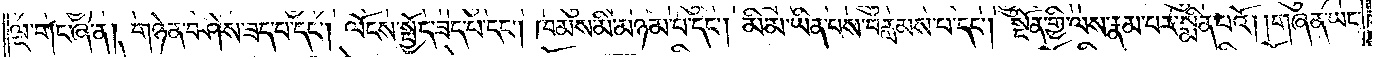ལྔ་གང་ཞེ་ན། གཉེན་བཤེས་ཟད་པ་དང༌། ལོངས་སྤྱོད་ཟད་པ་དང༌། ཁམས་མི་མཉམ་པ་དང༌། མི་མ་ཡིན་པས་བརླམས་པ་དང༌། སྔོན་གྱི་ལས་རྣམ་པར་སྨིན་པའོ། །གཞན་ཡང་
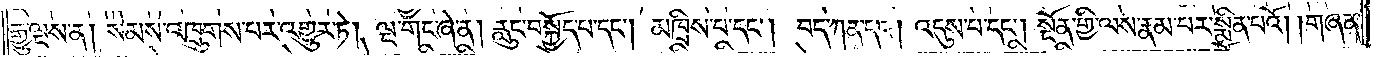རྒྱུ་ལྔས་ན། སེམས་འཁྲུགས་པར་འགྱུར་ཏེ། ལྔ་གང་ཞེ་ན། རླུང་བསྐྱོད་པ་དང༌། མཁྲིས་པ་དང༌། བད་ཀན་དང༌། འདུས་པ་དང༌། སྔོན་གྱི་ལས་རྣམ་པར་སྨིན་པའོ། །གཞན་
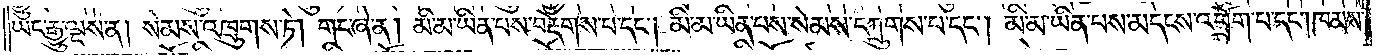ཡང་རྒྱུ་ལྔས་ན། སེམས་འཁྲུགས་ཏེ། གང་ཞེ་ན། མི་མ་ཡིན་པས་བརྡེགས་པ་དང༌། མི་མ་ཡིན་པས་སེམས་དཀྲུགས་པ་དང༌། མི་མ་ཡིན་པས་མདངས་འཕྲོག་པ་དང༌། ཁམས་
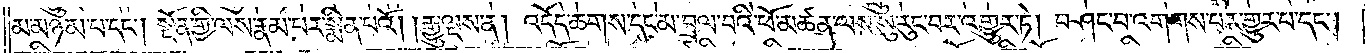མ་མཉམ་པ་དང༌། སྔོན་གྱི་ལས་རྣམ་པར་སྨིན་པའོ། །རྒྱུ་ལྔས་ན། འདོད་ཆགས་དང་མ་བྲལ་བའི་ཕོ་མཚན་ལས་སུ་རུང་བར་འགྱུར་ཏེ། བཤང་བ་འགགས་པར་གྱུར་པ་དང༌།
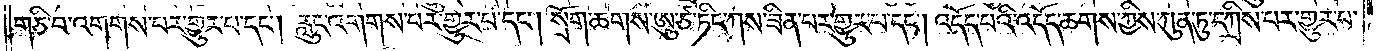གཅི་བ་འགགས་པར་གྱུར་པ་དང༌། རླུང་འགགས་པར་གྱུར་པ་དང༌། སྲོག་ཆགས་ཨུ་ཙ་ཏིང་ཀས་ཟིན་པར་གྱུར་པ་དང༌། འདོད་པའི་འདོད་ཆགས་ཀྱིས་ཀུན་ཏུ་དཀྲིས་པར་གྱུར་པ་
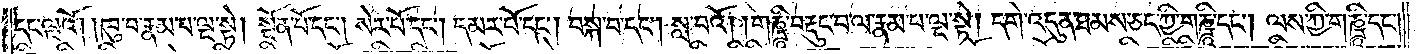དང་ལྔའོ། །ཁུ་བ་རྣམ་པ་ལྔ་སྟེ། སྔོན་པོ་དང༌། སེར་པོ་དང༌། དམར་པོ་དང༌། བསྐ་བ་དང༌། སླ་བའོ། །གཎྜཱི་བརྡུང་བ་ལ་རྣམ་པ་ལྔ་སྟེ། དགེ་འདུན་ཐམས་ཅད་ཀྱི་གཎྜཱི་དང༌། ལས་ཀྱི་གཎྜཱི་དང་
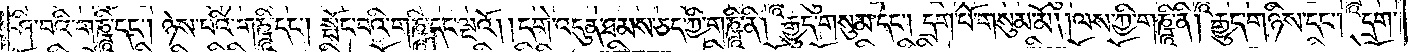ཤི་བའི་གཎྜཱི་དང༌། ཉེས་པའི་གཎྜཱི་དང༌། སྤོང་བའི་གཎྜཱི་དང་ལྔའོ། །དགེ་འདུན་ཐམས་ཅད་ཀྱི་གཎྜཱི་ནི། རྒུད་གསུམ་དང༌། དྲག་པོ་གསུམ་མོ། །ལས་ཀྱི་གཎྜཱི་ནི། རྒྱུད་གཉིས་དང༌། དྲག་
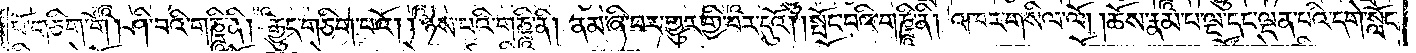པོ་གཅིག་གོ །ཤི་བའི་གཎྜཱི་ནི། རྒྱུད་གཅིག་པའོ། །ཉེས་པའི་གཎྜཱི་ནི། ནམ་ཞི་བར་གྱུར་གྱི་བར་དུའོ། །སྤོང་བའི་གཎྜཱི་ནི། འཁར་གསིལ་ལོ། །ཆོས་རྣམ་པ་ལྔ་དང་ལྡན་པའི་དགེ་སློང་
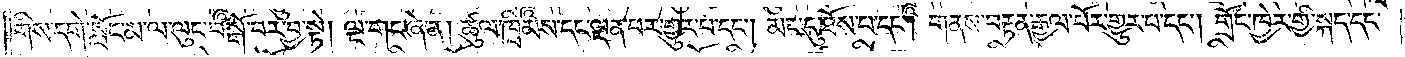གིས་དགེ་སློང་མ་ལ་ལུང་བསྒོ་བར་བྱ་སྟེ། ལྔ་གང་ཞེ་ན། ཚུལ་ཁྲིམས་དང་ལྡན་པར་གྱུར་པ་དང༌། མང་དུ་ཐོས་པ་དང༌། གནས་བརྟན་རྒྱལ་པོར་གྱུར་པ་དང༌། གྲོང་ཁྱེར་གྱི་སྐད་དང་
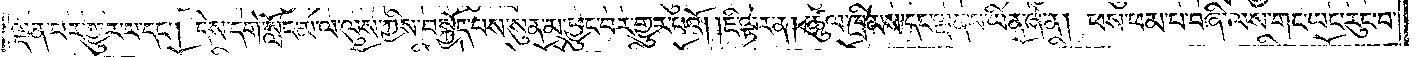ལྡན་པར་གྱུར་པ་དང༌། དེས་དགེ་སློང་མ་ལ་ལུས་ཀྱིས་བསྐྱོད་པས་སུན་མ་ཕྱུང་བར་གྱུར་པའོ། །ཇི་ལྟར་ན། ཚུལ་ཁྲིམས་དང་ལྡན་པ་ཡིན་ཞེ་ན། ཕས་ཕམ་པ་བཞི་ལས་གང་ཡང་རུང་བ་
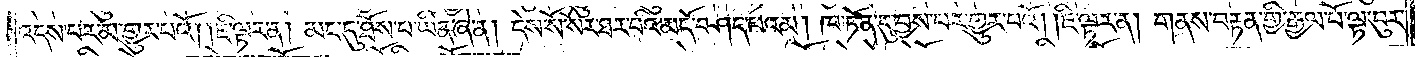འདས་པར་མ་གྱུར་པའོ། །ཇི་ལྟར་ན། མང་དུ་ཐོས་པ་ཡིན་ཞེ་ན། དེས་སོ་སོར་ཐར་པའི་མདོ་བཤད་པའམ། ཁ་ཏོན་དུ་བྱས་པར་གྱུར་པའོ། །ཇི་ལྟར་ན། གནས་བརྟན་གྱི་རྒྱལ་པོ་ལྟ་བུར་
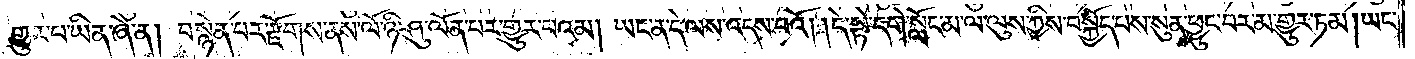གྱུར་པ་ཡིན་ཞེ་ན། བསྙེན་པར་རྫོགས་ནས་ལོ་ཉི་ཤུ་ལོན་པར་གྱུར་པའམ། ཡང་ན་དེ་ལས་འདས་པའོ། །དེ་སྟེ་དགེ་སློང་མ་ལ་ལུས་ཀྱིས་བསྐྱོད་པས་སུན་ཕྱུང་བར་མ་གྱུར་ཏམ། ཡང་
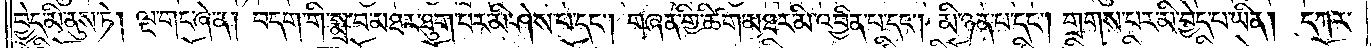བྱེད་མི་ནུས་ཏེ། ལྔ་གང་ཞེ་ན། བདག་གི་སྨྲ་བ་མཐར་ཐུག་པར་མི་ཤེས་པ་དང་། གཞན་གྱི་ཚིག་མཐར་མི་འབྱིན་པ་དང་། མི་ཉན་པ་དང་། གྲགས་པར་མི་བྱེད་པ་ཡིན། དཀར་
